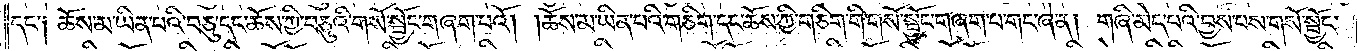དང༌། ཆོས་མ་ཡིན་པའི་བཅུ་དང་ཆོས་ཀྱི་བཅུའི་གསོ་སྦྱོང་གཞག་པའོ། །ཆོས་མ་ཡིན་པའི་གཅིག་དང་ཆོས་ཀྱི་གཅིག་གི་གསོ་སྦྱོང་གཞག་པ་གང་ཞེ་ན། གཞི་མེད་པའི་བྱས་པ་གསོ་སྦྱོང་
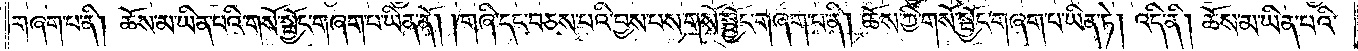གཞག་པ་ནི། ཆོས་མ་ཡིན་པའི་གསོ་སྦྱོང་གཞག་པ་ཡིན་ནོ། །གཞི་དང་བཅས་པའི་བྱས་པས་གསོ་སྦྱོང་གཞག་པ་ནི། ཆོས་ཀྱི་གསོ་སྦྱོང་གཞག་པ་ཡིན་ཏེ། འདི་ནི། ཆོས་མ་ཡིན་པའི་
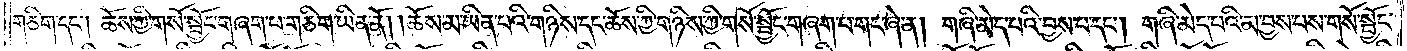གཅིག་དང༌། ཆོས་ཀྱི་གསོ་སྦྱོང་གཞག་པ་གཅིག་ཡིན་ནོ། །ཆོས་མ་ཡིན་པའི་གཉིས་དང་ཆོས་ཀྱི་གཉིས་ཀྱི་གསོ་སྦྱོང་གཞག་པ་གང་ཞེ་ན། གཞི་མེད་པའི་བྱས་པ་དང༌། གཞི་མེད་པའི་མ་བྱས་པས་གསོ་སྦྱོང་
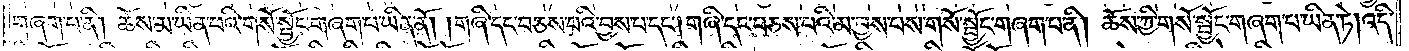གཞག་པ་ནི། ཆོས་མ་ཡིན་པའི་གསོ་སྦྱོང་གཞག་པ་ཡིན་ནོ་།གཞི་དང་བཅས་པའི་བྱས་པ་དང༌། གཞི་དང་བཅས་པའི་མ་བྱས་པས་གསོ་སྦྱོང་གཞག་པ་ནི། ཆོས་ཀྱི་གསོ་སྦྱོང་གཞག་པ་ཡིན་ཏེ། འདི་
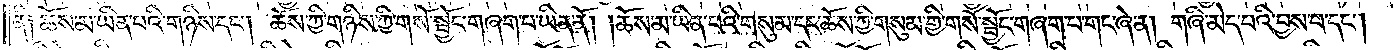ནི། ཆོས་མ་ཡིན་པའི་གཉིས་དང༌། ཆོས་ཀྱི་གཉིས་ཀྱི་གསོ་སྦྱོང་གཞག་པ་ཡིན་ནོ། །ཆོས་མ་ཡིན་པའི་གསུམ་དང་ཆོས་ཀྱི་གསུམ་གྱི་གསོ་སྦྱོང་གཞག་པ་གང་ཞེ་ན། གཞི་མེད་པའི་བྱས་པ་དང༌།
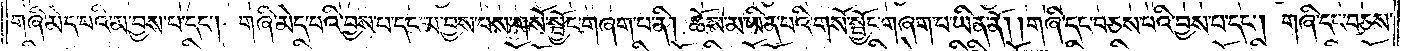གཞི་མེད་པའི་མ་བྱས་པ་དང༌། གཞི་མེད་པའི་བྱས་པ་དང་མ་བྱས་པས་གསོ་སྦྱོང་གཞག་པ་ནི། ཆོས་མ་ཡིན་པའི་གསོ་སྦྱོང་གཞག་པ་ཡིན་ནོ། །གཞི་དང་བཅས་པའི་བྱས་པ་དང༌། གཞི་དང་བཅས་
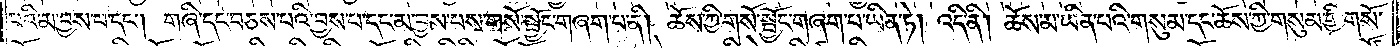པའི་མ་བྱས་པ་དང༌། གཞི་དང་བཅས་པའི་བྱས་པ་དང་མ་བྱས་པས་གསོ་སྦྱོང་གཞག་པ་ནི། ཆོས་ཀྱི་གསོ་སྦྱོང་གཞག་པ་ཡིན་ཏེ། འདི་ནི། ཆོས་མ་ཡིན་པའི་གསུམ་དང་ཆོས་ཀྱི་གསུམ་གྱི་གསོ་
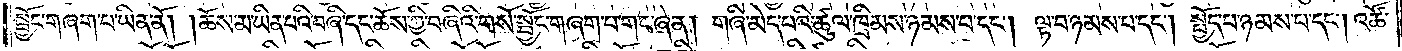སྦྱོང་གཞག་པ་ཡིན་ནོ། །ཆོས་མ་ཡིན་པའི་བཞི་དང་ཆོས་ཀྱི་བཞིའི་གསོ་སྦྱོང་གཞག་པ་གང་ཞེ་ན། གཞི་མེད་པའི་ཚུལ་ཁྲིམས་ཉམས་པ་དང༌། ལྟ་བ་ཉམས་པ་དང༌། སྤྱོད་པ་ཉམས་པ་དང༌། འཚོ་
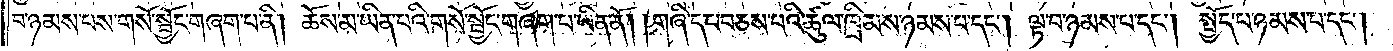པ་ཉམས་པས་གསོ་སྦྱོང་གཞག་པ་ནི། ཆོས་མ་ཡིན་པའི་གསོ་སྦྱོང་གཞག་པ་ཡིན་ནོ། །གཞི་དང་བཅས་པའི་ཚུལ་ཁྲིམས་ཉམས་པ་དང༌། ལྟ་བ་ཉམས་པ་དང༌། སྤྱོད་པ་ཉམས་པ་དང༌།
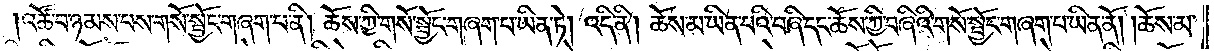འཚོ་བ་ཉམས་པས་གསོ་སྦྱོང་གཞག་པ་ནི། ཆོས་ཀྱི་གསོ་སྦྱོང་གཞག་པ་ཡིན་ཏེ། འདི་ནི། ཆོས་མ་ཡིན་པའི་བཞི་དང་ཆོས་ཀྱི་བཞིའི་གསོ་སྦྱོང་གཞག་པ་ཡིན་ནོ། །ཆོས་མ་
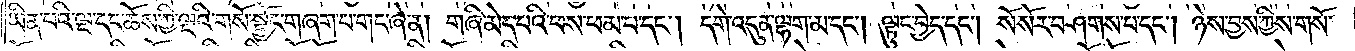ཡིན་པའི་ལྔ་དང་ཆོས་ཀྱི་ལྔའི་གསོ་སྦྱོང་གཞག་པ་གང་ཞེ་ན། གཞི་མེད་པའི་ཕས་ཕམ་པ་དང༌། དགེ་འདུན་ལྷག་མ་དང༌། ལྟུང་བྱེད་དང༌། སོ་སོར་བཤགས་པ་དང༌། ཉེས་བྱས་ཀྱིས་གསོ་
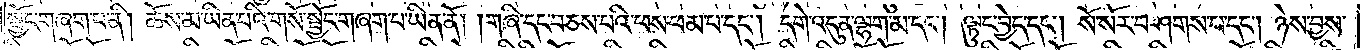སྦྱོང་གཞག་པ་ནི། ཆོས་མ་ཡིན་པའི་གསོ་སྦྱོང་གཞག་པ་ཡིན་ནོ། །གཞི་དང་བཅས་པའི་ཕས་ཕམ་པ་དང༌། དགེ་འདུན་ལྷག་མ་དང༌། ལྟུང་བྱེད་དང༌། སོ་སོར་བཤགས་པ་དང༌། ཉེས་བྱས་
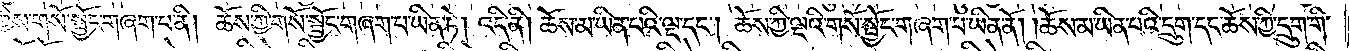ཀྱིས་གསོ་སྦྱོང་གཞག་པ་ནི། ཆོས་ཀྱི་གསོ་སྦྱོང་གཞག་པ་ཡིན་ཏེ། འདི་ནི། ཆོས་མ་ཡིན་པའི་ལྔ་དང༌། ཆོས་ཀྱི་ལྔའི་གསོ་སྦྱོང་གཞག་པ་ཡིན་ནོ། །ཆོས་མ་ཡིན་པའི་དྲུག་དང་ཆོས་ཀྱི་དྲུག་གི་
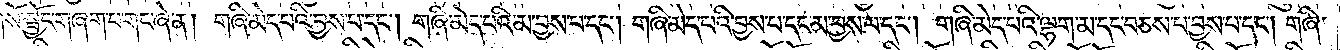གསོ་སྦྱོང་གཞག་པ་གང་ཞེ་ན། གཞི་མེད་པའི་བྱས་པ་དང༌། གཞི་མེད་པའི་མ་བྱས་པ་དང༌། གཞི་མེད་པའི་བྱས་པ་དང་མ་བྱས་པ་དང༌། གཞི་མེད་པའི་ལྷག་མ་དང་བཅས་པ་བྱས་པ་དང༌། གཞི་
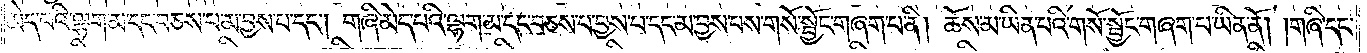མེད་པའི་ལྷག་མ་དང་བཅས་པ་མ་བྱས་པ་དང༌། གཞི་མེད་པའི་ལྷག་མ་དང་བཅས་པ་བྱས་པ་དང་མ་བྱས་པས་གསོ་སྦྱོང་གཞག་པ་ནི། ཆོས་མ་ཡིན་པའི་གསོ་སྦྱོང་གཞག་པ་ཡིན་ནོ། །གཞི་དང་
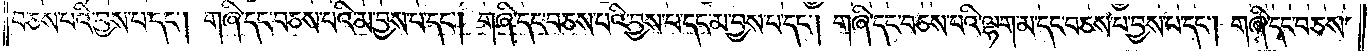བཅས་པའི་བྱས་པ་དང༌། གཞི་དང་བཅས་པའི་མ་བྱས་པ་དང༌། གཞི་དང་བཅས་པའི་མ་བྱས་པ་དང་མ་བྱས་པ་དང༌། གཞི་དང་བཅས་པའི་ལྷག་མ་དང་བཅས་པ་བྱས་པ་དང༌། གཞི་དང་བཅས་
